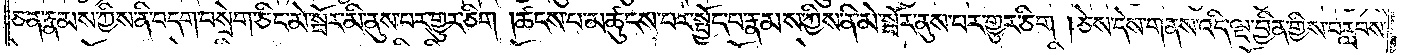ཅན་རྣམས་ཀྱིས་ནི་བདག་བསྲེག་ཅིང་མེ་སྦོར་མི་ནུས་པར་གྱུར་ཅིག །ཚངས་པ་མཚུངས་པར་སྤྱོད་པ་རྣམས་ཀྱིས་ནི་མེ་སྦོར་ནུས་པར་གྱུར་ཅིག །ཅེས་དེས་གནས་འདི་ལྔ་བྱིན་གྱིས་བརླབས་
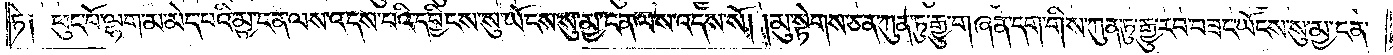ཏེ༑ ཕུང་པོ་ལྷག་མ་མེད་པའི་མྱ་ངན་ལས་འདས་པའི་དབྱིངས་སུ་ཡོངས་སུ་མྱ་ངན་ལས་འདས་སོ། །མུ་སྟེགས་ཅན་ཀུན་ཏུ་རྒྱུ་གཞན་དག་གིས་ཀུན་ཏུ་རྒྱུ་རབ་བཟང་ཡོངས་སུ་མྱ་ངན་
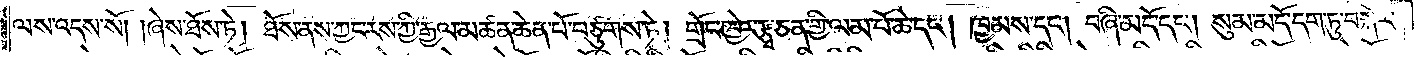ལས་འདས་སོ། །ཞེས་ཐོས་ཏེ། ཐོས་ནས་ཀྱང་རས་ཀྱི་རྒྱལ་མཚན་ཆེན་པོ་བཙུགས་ཏེ། གྲོང་ཁྱེར་རྩྭ་ཅན་གྱི་ལམ་པོ་ཆེ་དང༌། ཁྱམས་དང༌། བཞི་མདོ་དང༌། སུམ་མདོ་དག་ཏུ་བསྐོར་
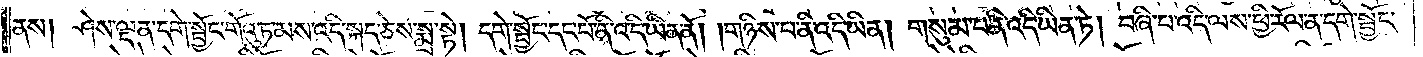ནས། ཤེས་ལྡན་དགེ་སྦྱོང་གོའུ་ཏ་མས་འདི་སྐད་ཅེས་སྨྲ་སྟེ། དགེ་སྦྱོང་དང་པོ་ནི་འདི་ཡིན་ནོ། །གཉིས་པ་ནི་འདི་ཡིན། གསུམ་པ་ནི་འདི་ཡིན་ཏེ། བཞི་པ་འདི་ལས་ཕྱི་རོལ་ན་དགེ་སྦྱོང་
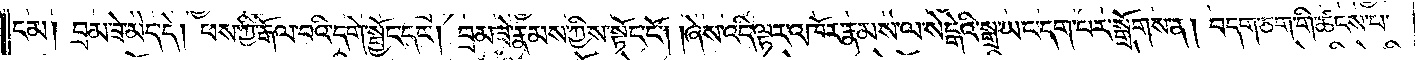ངམ། བྲམ་ཟེ་མེད་དེ། ཕས་ཀྱི་རྒོལ་བའི་དགེ་སྦྱོང་དང༌། བྲམ་ཟེ་རྣམས་ཀྱིས་སྟོང་ངོ༌། །ཞེས་འདི་ལྟར་འཁོར་རྣམས་ལ་སེངྒེའི་སྒྲ་ཡང་དག་པར་སྒྲོགས་ན། བདག་ཅག་གི་ཚངས་པ་
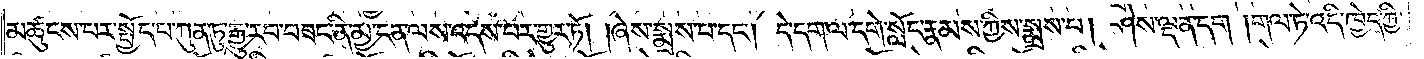མཚུངས་པར་སྤྱོད་པ་ཀུན་ཏུ་རྒྱུ་རབ་བཟང་ནི་མྱ་ངན་ལས་འདས་བར་གྱུར་ཏོ། །ཞེས་སྨྲས་པ་དང༌། དེ་དག་ལ་དགེ་སློང་རྣམས་ཀྱིས་སྨྲས་པ། ཤེས་ལྡན་དག །གལ་ཏེ་འདི་ཁྱེད་ཀྱི་
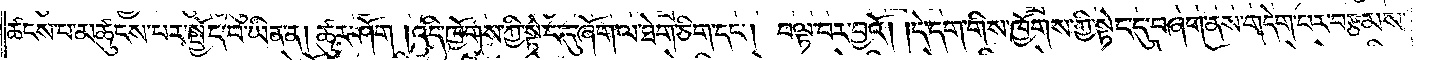ཚངས་པ་མཚུངས་པར་སྤྱོད་པ་ཡིན་ན། ཚུར་ཤོག །འདི་ཁྱོགས་ཀྱི་སྟེང་དུ་ཞོག་ལ་ཐེག་ཅིག་དང༌། བལྟ་བར་བྱའོ། །དེ་དག་གིས་ཁྱོགས་ཀྱི་སྟེང་དུ་བཞག་ནས་གདེག་པར་བརྩམས་
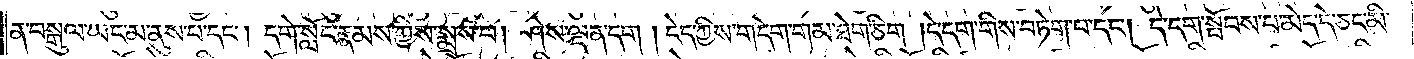ན་བསྒུལ་ཡང་མ་ནུས་པ་དང༌། དགེ་སློང་རྣམས་ཀྱིས་སྨྲས་པ། ཤེས་ལྡན་དག །ངེད་ཀྱིས་གདེག་གམ་ཐེག་ཅིག །དེ་དག་གིས་བཏེག་པ་དང༌། དེ་དག་སྤོབས་པ་མེད་དེ་ཅང་མི་
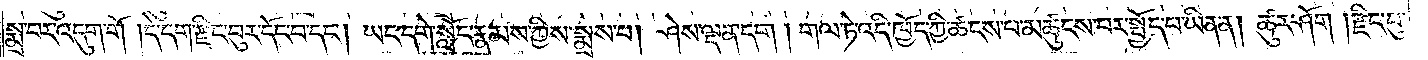སྨྲ་བར་འདུག་གོ །དེ་དག་རྫིང་བུར་དོང་བ་དང༌། ཡང་དགེ་སློང་རྣམས་ཀྱིས་སྨྲས་པ། ཤེས་ལྡན་དག། གལ་ཏེ་འདི་ཁྱོད་ཀྱི་ཚངས་པ་མཚུངས་པར་སྤྱོད་པ་ཡིན་ན། ཚུར་ཤོག །རྫིང་བུ་
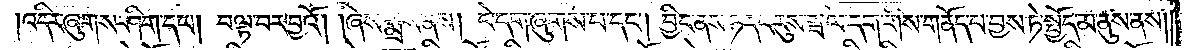འདིར་ཞུགས་ཤིག་དང༌། བལྟ་བར་བྱའོ། །ཞེས་སྨྲས་ནས། དེ་དག་ཞུགས་པ་དང༌། བྱིང་ནས་ཉ་དང་རུས་སྦལ་དག་གིས་གནོད་པ་བྱས་ཏེ་སྤྱོད་མ་ནུས་ནས།
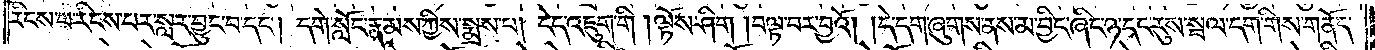རིངས་པ་རིངས་པར་སླར་བྱུང་བ་དང༌། དགེ་སློང་རྣམས་ཀྱིས་སྨྲས་པ། ངེད་འཇུག་གི །ལྟོས་ཤིག །བལྟ་བར་བྱའོ། །དེ་དག་ཞུགས་ནས་མ་བྱིང་ཞིང་ཉ་དང་རུས་སྦལ་དག་གིས་གནོད་
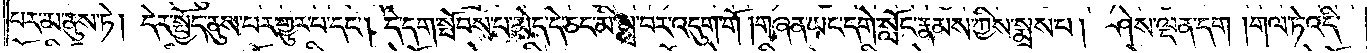པར་མ་ནུས་ཏེ། དེར་སྤྱོད་ནུས་པར་གྱུར་པ་དང༌། དེ་དག་སྤོབས་པ་མེད་དེ་ཅང་མི་སྨྲ་བར་འདུག་གོ །གཞན་ཡང་དགེ་སློང་རྣམས་ཀྱིས་སྨྲས་པ། ཤེས་ལྡན་དག །གལ་ཏེ་འདི་
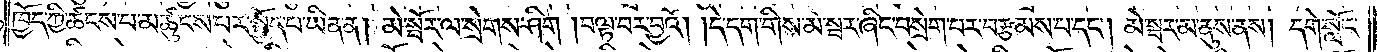ཁྱོད་ཀྱི་ཚངས་པ་མཚུངས་པར་སྤྱོད་པ་ཡིན་ན། མེ་སྦོར་ལ་སྲེགས་ཤིག །བལྟ་བར་བྱའོ། །དེ་དག་གིས་མེ་སྦར་ཞིང་བསྲེག་བར་བརྩམས་པ་དང༌། མེ་སྦར་མ་ནུས་ནས། དགེ་སློང་
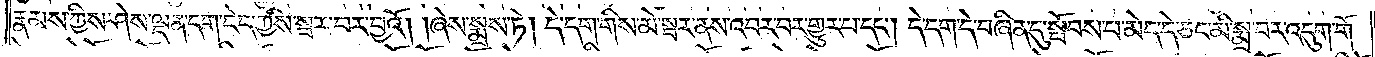རྣམས་ཀྱིས་ཤེས་ལྡན་དག་ངེད་ཀྱིས་སྦར་བར་བྱའོ། །ཞེས་སྨྲས་ཏེ། དེ་དག་གིས་མེ་སྦར་ནས་འབར་བར་གྱུར་པ་དང༌། དེ་དག་དེ་བཞིན་དུ་སྤོབས་པ་མེད་དེ་ཅང་མི་སྨྲ་བར་འདུག་གོ་
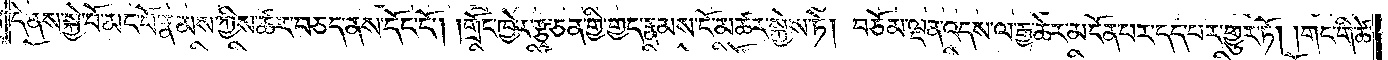དེ་ནས་སྐྱེ་བོ་མང་པོ་རྣམས་ཀྱིས་ཚར་བཅད་ནས་དོང་ངོ༌། །གྲོང་ཁྱེར་རྩྭ་ཅན་གྱི་གྱད་རྣམས་ངོ་མཚར་སྐྱེས་ཏེ། བཅོམ་ལྡན་འདས་ལ་རྒྱ་ཆེར་མངོན་པར་དད་པར་གྱུར་ཏོ། །གང་གི་ཚེ་
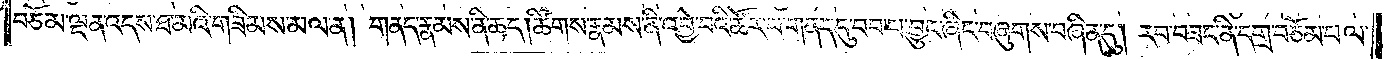བཅོམ་ལྡན་འདས་ཐ་མའི་གཟིམས་མལ་ན། གནད་རྣམས་ནི་ཆད། ཚིགས་རྣམས་ནི་འབྱེ་བའི་ཚོར་བ་གནད་དུ་བབ་པ་བྱུང་ཞིང་བཞུགས་བཞིན་དུ། རབ་བཟང་ནི་དགྲ་བཅོམ་པ་ལ་
